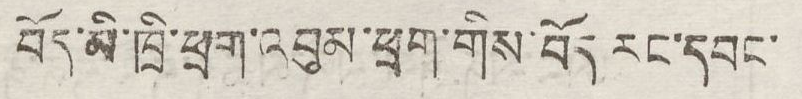བོད་མི་ཁྲི་ཕྲག་འབུམ་ཕྲག་གིས་བོད རང་དབང་
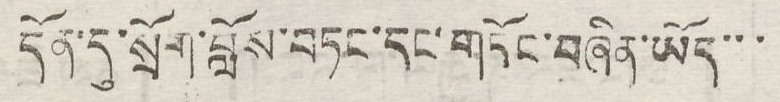དོན་དུ་སྲོག་བློས་བཏང་དང་གཏོང་བཞིན་ཡོད་་་
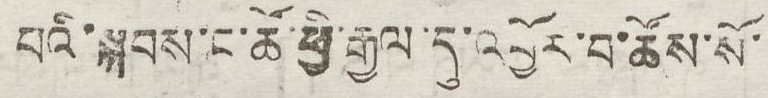པའི་སྐབས་ང་ཚོ་ཕྱི་རྒྱལ་དུ་འབྱོར་བ་ཚོས་སོ་
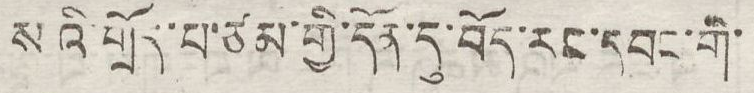སའི་གྲོད་པ་ཙམ་གྱི་དོན་དུ་བོད་རང་དབང་གི་
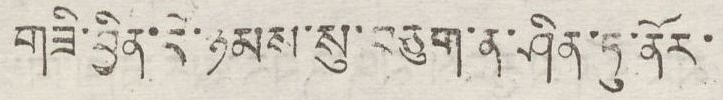གཟི་བྱིན་དེ་ཉམས་སུ་བཅུག་ན་ཤིན་ཏུ་ནོར་
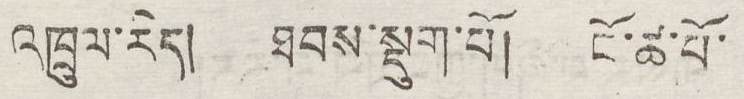འཁྲུལ་རེད། ཐབས་སྡུག་པོ། ངོ་ཚ་པོ་
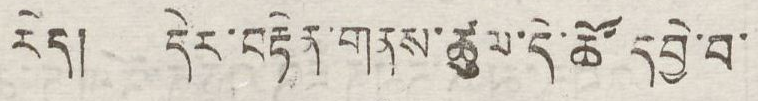རེད། དེར་བརྟེན་གནས་ཚུལ་དེ་ཚོ་དབྱེ་བ་
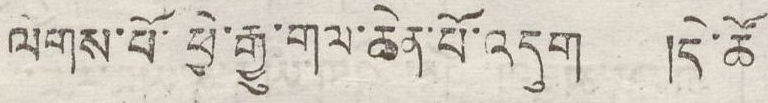ལེགས་པོ་ཕྱེ་རྒྱུ་གལ་ཆེན་པོ་འདུག །དེ་ཚོ
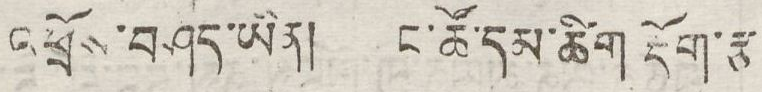འཕྲོས་བཤད་ཡིན། ང་ཚོ་དམ་ཚིག རྡོག་རྩ
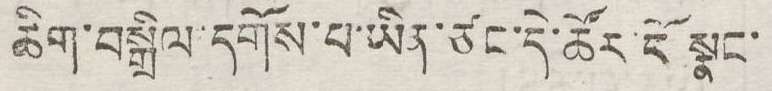ཆིག་བསྒྲིལ་དགོས་པ་ཡིན་ཙང་དེ་ཚོར་དོ སྣང་
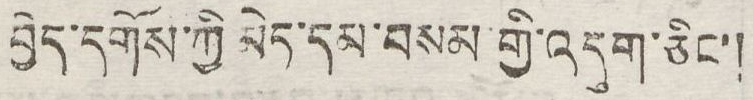བྱེད་དགོས་ཀྱི མེད་དམ་བསམ་གྱི་འདུག་ཅིང་།
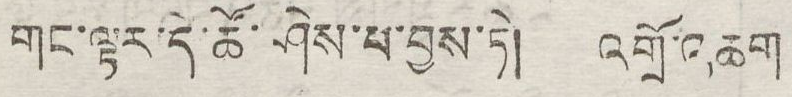གང་ལྟར་དེ་ཚོ་ཤེས་པ་བྱས་ཏེ། འགྲོ་འཆག
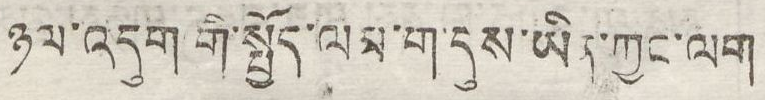ཉལ་འདུག གི་སྤྱོད་ལམ་གདུས་ཡིན་ཀྱང་ལག
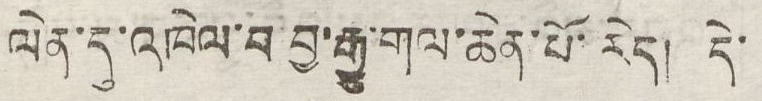ལེན་དུ་འཁེལ་བ་བྱ་རྒྱ་གལ་ཆེན་པོ་རེད། དེ་
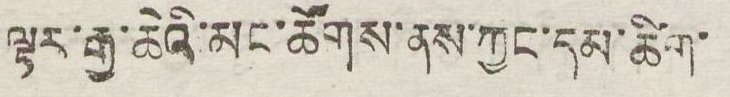ལྟར་རྒྱ་ཆེའི་མང་ཚོགས་ནས་ཀྱང་དམ་ཚིག་
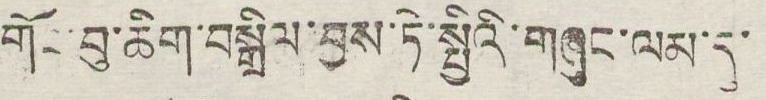གོང་བུ་ཆིག་བསྒྲིལ་བྱས་ཏེ་སྤྱིའི་གཞུང་ལམ་དུ་
